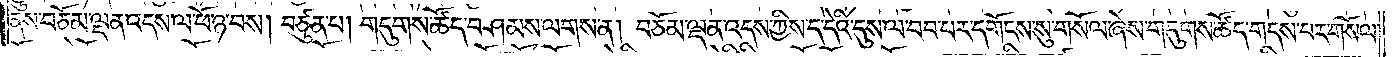ནས་བཅོམ་ལྡན་འདས་ལ་ཕོ་ཉ་བས། བཙུན་པ། གདུགས་ཚོད་བཤམས་ལགས་ན། བཅོམ་ལྡན་འདས་ཀྱིས་ད་དེའི་དུས་ལ་བབ་པར་དགོངས་སུ་གསོལ་ཞེས་གདུགས་ཚོད་གདས་པར་གསོལ་
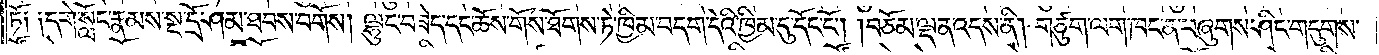ཏོ༑ ༑དགེ་སློང་རྣམས་སྔ་དྲོ་ཤམ་ཐབས་བགོས། ལྷུང་བཟེད་དང་ཆོས་གོས་ཐོགས་ཏེ་ཁྱིམ་བདག་དེའི་ཁྱིམ་དུ་དོང་ངོ༌། །བཅོམ་ལྡན་འདས་ནི། གཙུག་ལག་ཁང་ན་བཞུགས་ཤིང་གདུགས་
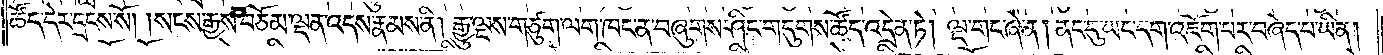ཚོད་དེར་དྲངས་སོ། །སངས་རྒྱས་བཅོམ་ལྡན་འདས་རྣམས་ནི། རྒྱུ་ལྔས་གཙུག་ལག་ཁང་ན་བཞུགས་ཤིང་གདུགས་ཚོད་འདྲེན་ཏེ། ལྔ་གང་ཞེ་ན། ནང་དུ་ཡང་དག་འཇོག་པར་བཞེད་པ་ཡིན།
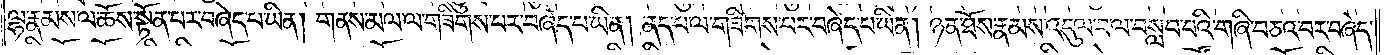ལྷ་རྣམས་ལ་ཆོས་སྟོན་པར་བཞེད་པ་ཡིན། གནས་མལ་ལ་གཟིགས་པར་བཞེད་པ་ཡིན། ནད་པ་ལ་གཟིགས་པར་བཞེད་པ་ཡིན། ཉན་ཐོས་རྣམས་འདུལ་བ་ལ་བསླབ་པའི་གཞི་བཅའ་བར་བཞེད་
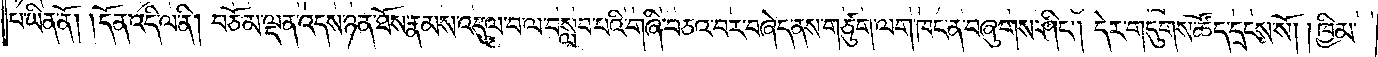པ་ཡིན་ནོ། །དོན་འདི་ལ་ནི། བཅོམ་ལྡན་འདས་ཉན་ཐོས་རྣམས་འདུལ་བ་ལ་བསླབ་པའི་གཞི་བཅའ་བར་བཞེད་ནས་གཙུག་ལག་ཁང་ན་བཞུགས་ཤིང༌། དེར་གདུགས་ཚོད་དྲངས་སོ། །ཁྱིམ་
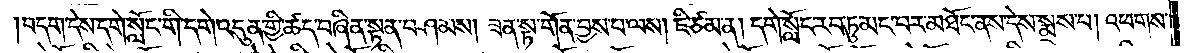བདག་དེས་དགེ་སློང་གི་དགེ་འདུན་གྱི་ཚད་བཞིན་སྟན་བཤམས། ཟན་སྟ་གོན་བྱས་པ་ལས། ཇི་ཙམ་ན། དགེ་སློང་རབ་ཏུ་མང་བར་མཐོང་ནས་དེས་སྨྲས་པ། འཕགས་
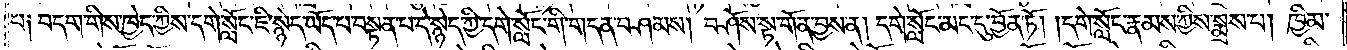པ༑ བདག་གིས་ཁྱེད་ཀྱིས་དགེ་སློང་ཇི་སྙེད་ཡོད་པ་བསྟན་པ་དེ་སྙེད་ཀྱི་དགེ་སློང་གི་གདན་བཤམས། བཤོས་སྟ་གོན་བྱས་ན། དགེ་སློང་མང་དུ་བྱོན་ཏོ། །དགེ་སློང་རྣམས་ཀྱིས་སྨྲས་པ། ཁྱིམ་
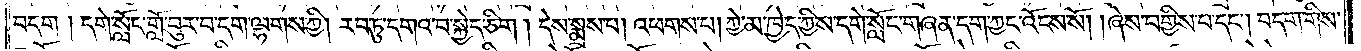བདག །དགེ་སློང་གློ་བུར་བ་དག་ལྷགས་ཀྱི། རབ་ཏུ་དགའ་བ་སྐྱེད་ཅིག །དེས་སྨྲས་པ། འཕགས་པ། ཀྱེ་མ་ཁྱེད་ཀྱིས་དགེ་སློང་གཞན་དག་ཀྱང་འོངས་སོ། །ཞེས་བགྱིས་པ་དང༌། བདག་གིས་
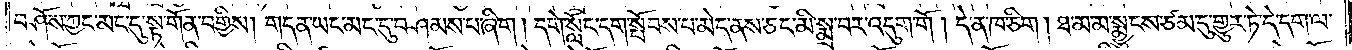བཤོས་ཀྱང་མང་དུ་སྟ་གོན་བགྱིས། གདན་ཡང་མང་དུ་བཤམས་པ་ཞིག །དགེ་སློང་དག་སྤོབས་པ་མེད་ནས་ཅང་མི་སྨྲ་བར་འདུག་གོ །དེ་ན་ཁ་ཅིག། ཐ་མ་མ་སྨྱུངས་ཙམ་དུ་གྱུར་ཏེ་དེ་དག་ལ་
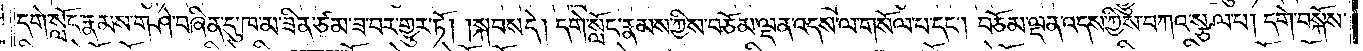དགེ་སློང་རྣམས་གཤེ་བཞིན་དུ་ཁ་མ་ཟིན་ཙམ་ཟ་བར་གྱུར་ཏོ། །སྐབས་དེ། དགེ་སློང་རྣམས་ཀྱིས་བཅོམ་ལྡན་འདས་ལ་གསོལ་པ་དང༌། བཅོམ་ལྡན་འདས་ཀྱིས་བཀའ་སྩལ་པ། དགེ་བསྐོས་
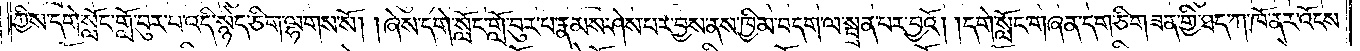ཀྱིས་དགེ་སློང་གློ་བུར་པ་འདི་སྙེད་ཅིག་ལྷགས་སོ། །ཞེས་དགེ་སློང་གློ་བུར་པ་རྣམས་ཤེས་པར་བྱས་ནས་ཁྱིམ་བདག་ལ་སྦྲན་པར་བྱའོ། །དགེ་སློང་གཞན་དག་ཅིག་ཟན་གྱི་ཐད་ཀ་ཁོ་ནར་འོངས་
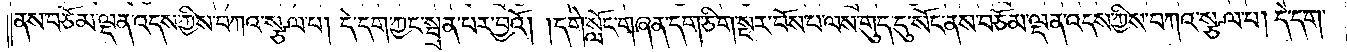ནས་བཅོམ་ལྡན་འདས་ཀྱིས་བཀའ་སྩལ་པ། དེ་དག་ཀྱང་སྦྲན་པར་བྱའོ། །དགེ་སློང་གཞན་དག་ཅིག་སྔར་བོས་པ་ལས་གུད་དུ་སོང་ནས་བཅོམ་ལྡན་འདས་ཀྱིས་བཀའ་སྩལ་པ། དེ་དག་
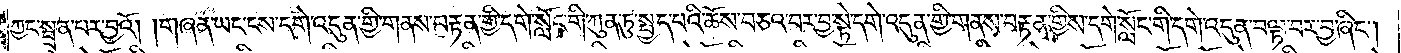ཀྱང་སྦྲན་པར་བྱའོ། །གཞན་ཡང་ངས་དགེ་འདུན་གྱི་གནས་བརྟན་གྱི་དགེ་སློང་གི་ཀུན་ཏུ་སྤྱད་པའི་ཆོས་བཅའ་བར་བྱ་སྟེ་དགེ་འདུན་གྱི་གནས་བརྟན་གྱིས་དགེ་སློང་གི་དགེ་འདུན་བལྟ་བར་བྱ་ཞིང་།
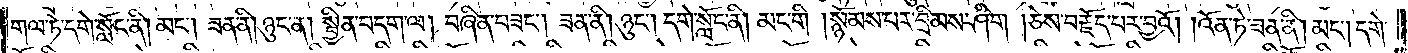གལ་ཏེ་དགེ་སློང་ནི། མང༌། ཟན་ནི། ཉུང་ན། སྦྱིན་བདག་ལ། བཞིན་བཟང༌། ཟན་ནི། ཉུང༌། དགེ་སློང་ནི། མང་གི །སྙོམས་པར་བྲིམས་ཤིག །ཅེས་བརྗོད་པར་བྱའོ། །འོན་ཏེ་ཟན་ནི། མང༌། དགེ་
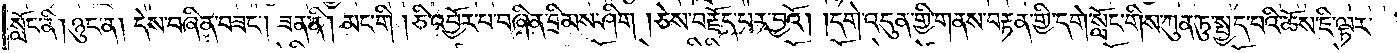སློང་ནི། ཉུང་ན། དེས་བཞིན་བཟང༌། ཟན་ནི། མང་གི །ཅི་འབྱོར་པ་བཞིན་བྲིམས་ཤིག །ཅེས་བརྗོད་པར་བྱའོ། །དགེ་འདུན་གྱི་གནས་བརྟན་གྱི་དགེ་སློང་གིས་ཀུན་ཏུ་སྤྱད་པའི་ཆོས་ཇི་ལྟར་
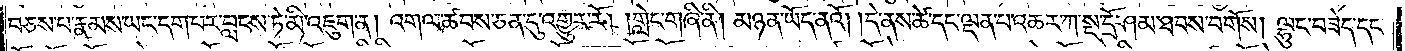བཅས་པ་རྣམས་ཡང་དག་པར་བླངས་ཏེ་མི་འཇུག་ན། འགལ་ཚབས་ཅན་དུ་འགྱུར་རོ། །གླེང་གཞི་ནི། མཉན་ཡོད་ནའོ། །དེ་ནས་ཚེ་དང་ལྡན་པ་འཆར་ཀ་སྔ་དྲོ་ཤམ་ཐབས་བགོས། ལྷུང་བཟེད་དང་
